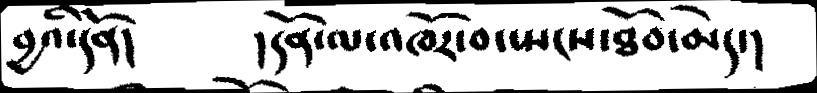བྱའི་དོན།                 །དོན་ལ་འཁོར་བ་སྤངས་ཐོབ་མེད་།
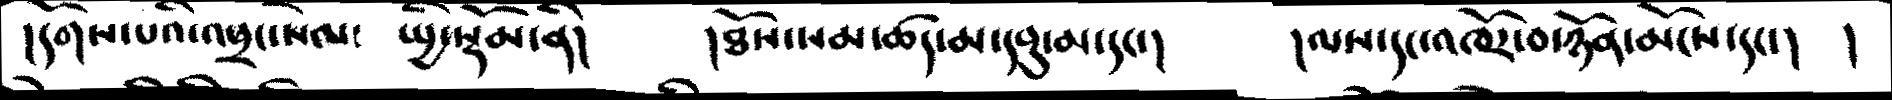།དགོས་པའི་འཕྲང་སེལ་    སྤྱི་སྡོམ་ནི།       །ཐོས་སམ་ཚད་མ་དབུ་མ་དང་།       །ལས་དང་འཁོར་བ་ཉོན་མོངས་དང་།  །
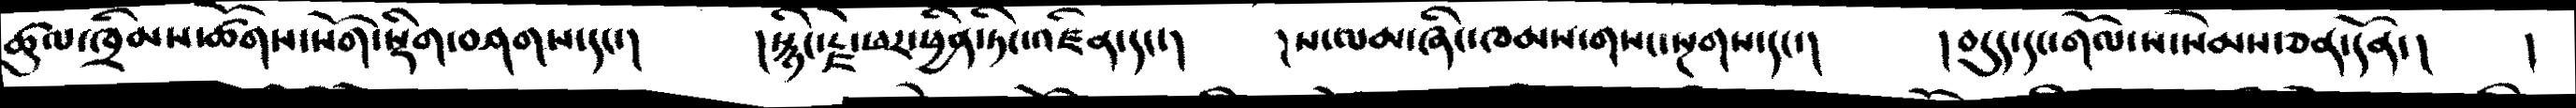ཚུལ་ཁྲིམས་ཚོགས་སོག་སྡིག་བཤགས་དང་།    །སྙིང་རྗེ་ཕར་ཕྱིན་ཏིང་འཛིན་དང་།    །ས་ལམ་ཞིང་ཁམས་གསང་སྔགས་དང་།     །བདུད་དང་གོལ་ས་སེམས་ཅན་དོན་།    །
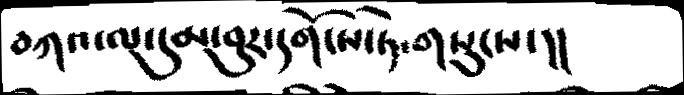བཀའ་ལ་དུམ་བུར་དགོངས་ཏེ་གསུངས་།།
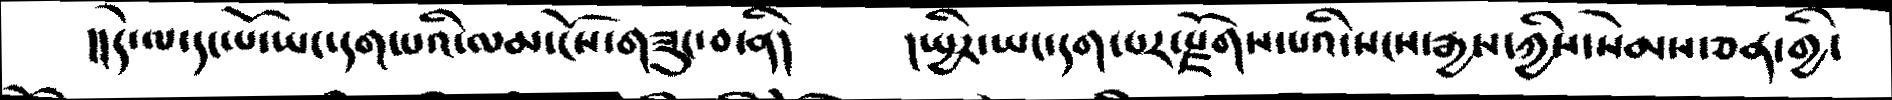།།དེ་ལ་དང་པོ་ཡང་དག་པའི་ལམ་ངོས་གཟུང་བ་ནི།      །སྤྱིར་ཡང་དག་པར་རྫོགས་པའི་སངས་རྒྱས་ཀྱིས་སེམས་ཅན་གྱི་
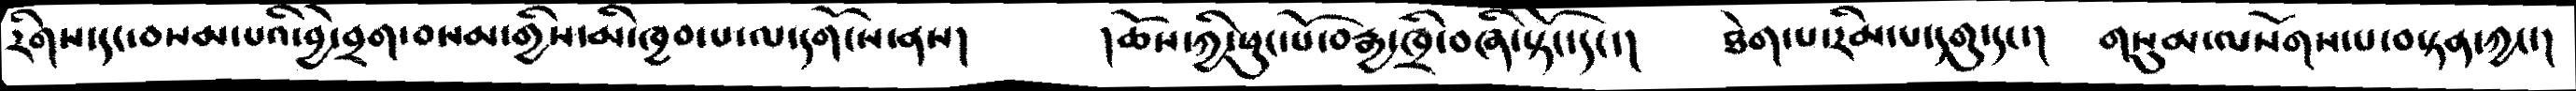རིགས་དང་བསམ་པའི་བྱེ་བྲག་བསམ་གྱི་མི་ཁྱབ་པ་ལ་དགོངས་ནས།    །ཆོས་ཀྱི་ཕུང་པོ་བརྒྱ་ཁྲི་བཞི་སྟོང་དང་།    ཐེག་པ་རིམ་པ་དགུ་དང་།    གསུམ་ལསོགས་པ་བསྟན་ཀྱང་།
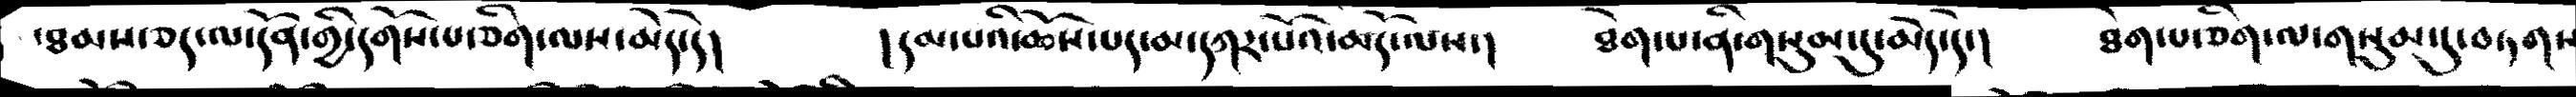་ཐམས་ཅད་ལ་དོན་གྱི་དགོས་པ་ཅིག་ལས་མེད་དེ།      །དམ་པའི་ཆོས་པད་མ་དཀར་པོའ་མདོ་ལས་།     ཐེག་པ་ནི་གསུམ་དུ་་མེད་དེ་།    ཐེག་པ་ཅིག་ལ་གསུམ་དུ་བཏགས
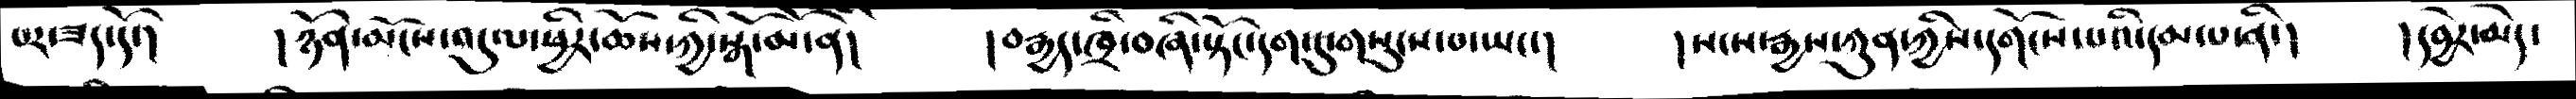པར་ཟད་དོ་།      །ཉོན་མོངས་འདུལ་ཕྱིར་ཆོས་ཀྱི་སྒོ་མོ་ནི།       །བརྒྱད་ཁྲི་བཞི་སྟོང་དག་དུ་གསུངས་པ་ཡང་།    །སངས་རྒྱས་ཀུན་ཀྱིས་དགོངས་པའི་དམ་པ་ནི་།    །དབྱེར་མེད་
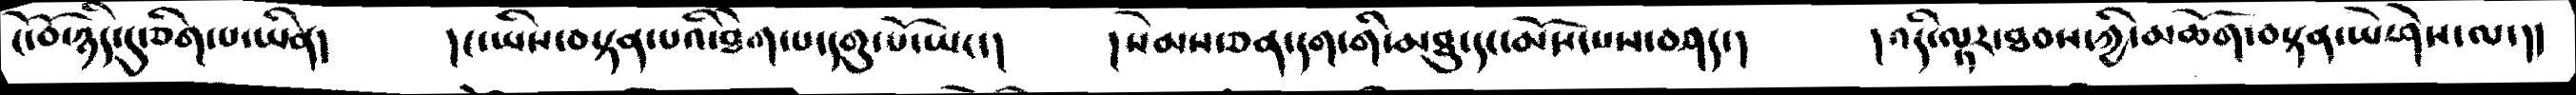ངོ་བོ་ཉིད་དུ་ཅིག་པ་ཡིན།   །ང་ཡིས་བསྟན་པའི་ཐེག་པ་དགུ་པོ་ཡང་།    །སེམས་ཅན་དག་གི་མཐུ་དང་མོས་པས་བཤད་།    །འདི་ལྟར་ཐབས་ཀྱི་མཆོག་བསྟན་ཡེ་ཤེས་ལ་།།
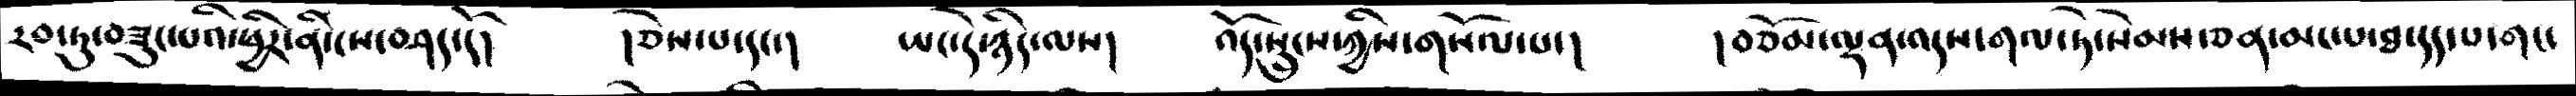རབ་ཏུ་བཟུང་པའི་ཕྱིར་ནི་ས་བཤད་དོ།     །ཅེས་པ་དང་།     ཡང་དེ་ཉིད་ལས།      འོད་སྲུངས་ཀྱིས་གསོལ་པ་།     །བཅོམ་ལྡན་འདས་གལ་ཏེ་སེམས་ཅན་མང་པ་ཐ་དད་པ་གང་
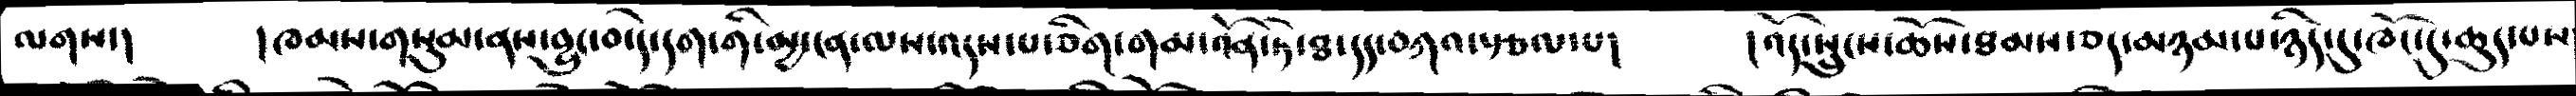ལགས་།     །ཁམས་གསུམ་ནས་བྱུང་བ་དེ་དག་གི་མྱ་ངན་ལས་འདས་པ་ཅིག་གམ་འོན་ཏེ་ཐ་དད་བཀའ་སྩལ་པ།    །འོད་སྲུངས་ཆོས་ཐམས་ཅད་མཉམ་པ་ཉིད་དུ་ཁོང་དུ་ཆུད་པས
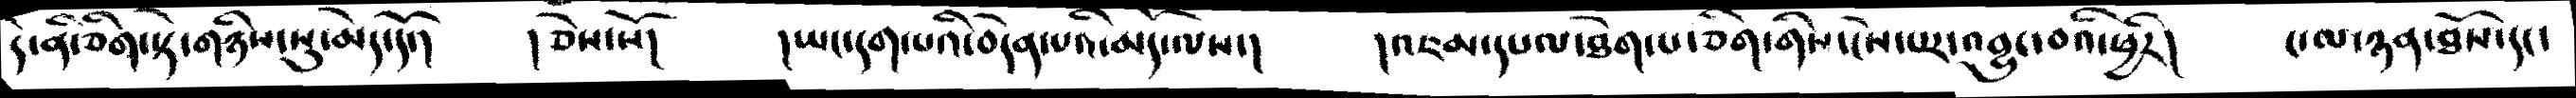དེ་ནི་ཅི་སྟེ་གཉིས་སུ་མེད་དོ་།    ། ཅེས་སོ།     །ཡང་དག་པའི་བདེན་པའི་མདོ་ལས་།      །འཇམ་དཔལ་ཐེག་པ་ཅིག་གིས་ངེས་པར་འབྱུང་བའི་ཕྱིར།  ང་ལ་ཉན་ཐོས་དང་
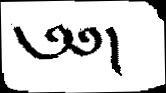༅།
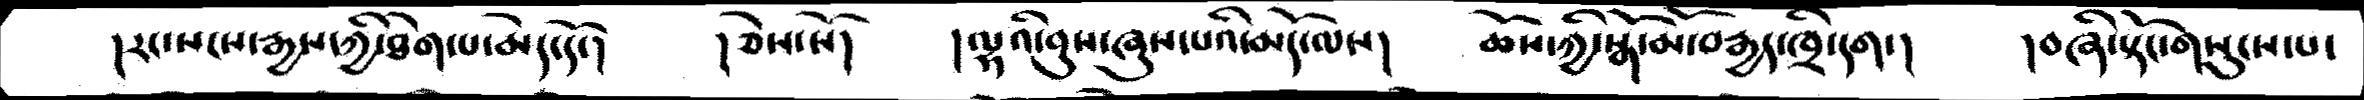།རང་སངས་རྒྱས་ཀྱི་ཐེག་པ་མེད་དོ་།      །ཅེས་སོ།       །ལྟའི་ནུས་ཞུས་པའི་མདོ་ལས།   ཆོས་ཀྱི་སྒོ་མོ་བརྒྱད་ཁྲི་དག་།     །བཞི་སྟོང་གསུངས་པ་
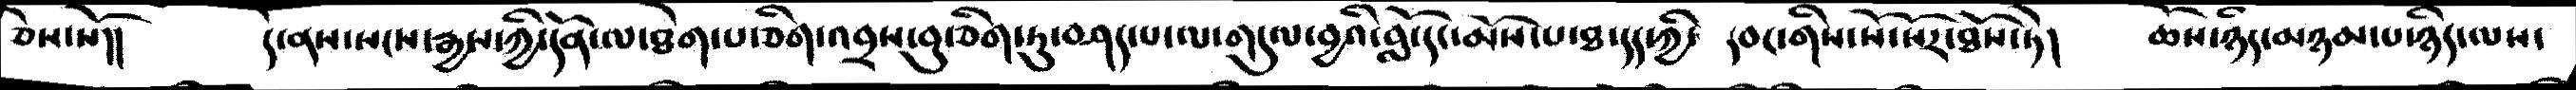ཅེས་སོ།།        དེ་ནས་སངས་རྒྱས་ཀྱི་དོན་ལ་ཐེག་པ་ཅིག་འབྲས་བུ་ཅིག་ཏུ་བཤད་པ་ལ་གདུལ་བྱའི་བློ་དང་མོས་པ་ཐ་དད་ཀྱི་ དབང་གིས་སོ་སོར་ཐོས་ཏེ།    ཆོས་ཉིད་མཉམ་པ་ཉིད་ལས་
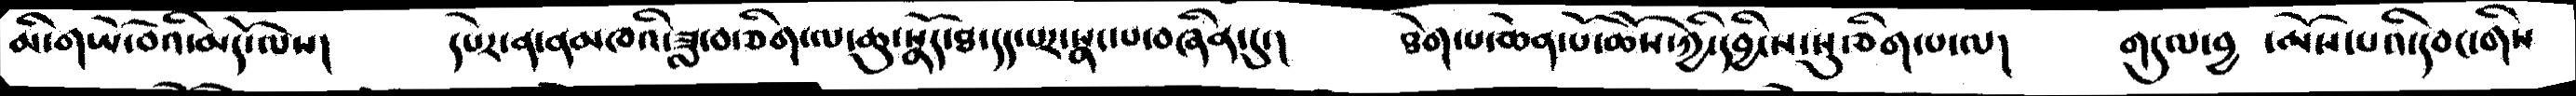མི་གཡོ་བའི་མདོ་ལས།    དཔེར་ན་ནམཁའི་ཟླ་བ་ཅིག་ལ་ཆུ་སྣོད་ཐ་དད་པར་སྣང་པ་བཞིན་དུ་།   ཐེག་པ་ཆེན་པོ་ཆོས་ཀྱི་དབྱིངས་སུ་ཅིག་པ་ལ།    གདུལ་བྱ་མོས་པའི་དབང་གིས
